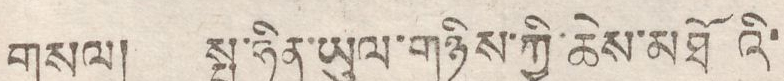གསལ། སྤ་ཧིན་ཡུལ་གཉིས་ཀྱི་ཆེས་མཐོའི་
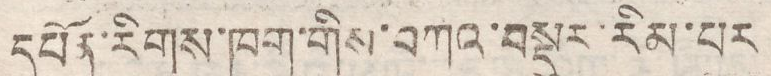དཔོན་རིགས་ཁག་གིས་བཀའ་བསྡུར་རིམ་པར
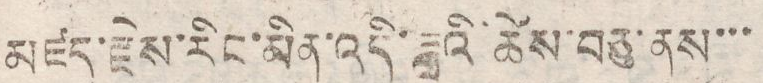མཛད་རྗེས་རིང་མིན་འདི་ཟླའི་ཚེས་བཅུ་ནས་་་
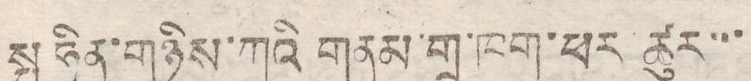སྤ ཧིན་གཉིས་ཀའི གནམ་གྲུ་ཁག་ཕར ཚུར་་་
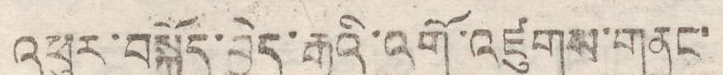འཕུར་བསྐྱོད་བྱེད་རྒྱུའི་འགོ་འཛུགས་གནང་
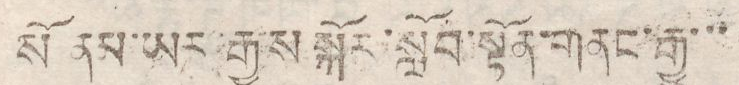སོ ནམ་ཡར་རྒྱས་སྐོར་སྒྲོབ་སྟོན་གནང་རྒྱུ་་་
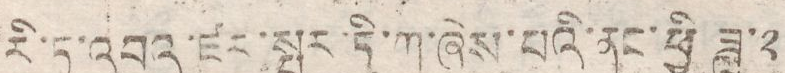རི་ཏ་འབའ་ཛམ་སྤར་ཏི་ཀ་ཞེས་པའི་ནང་ཕྱི ཟླ་༢
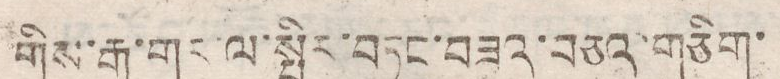གིས་རྒྱ་གར་ལ་སྤྱིར་བཏང་བཟའ་བཅའ་གཅིག་
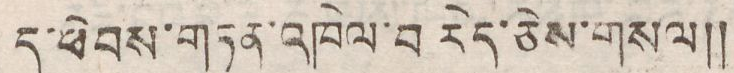དུ་ཕེབས་གཏན་འཁེལ་བ རེད་གསལ།།
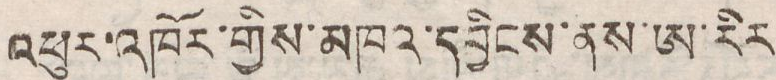འཕུར་འཁོར་གྱིས་མཁའ་དབྱིངས་ནས་ཨ་རིར་
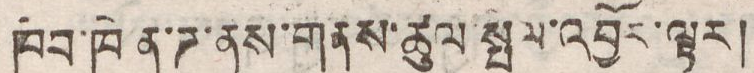ཁེབ་ཁེ ན་ཌ་ནས་གནས་ཚུལ་སྤལ་འབྱོར་ལྟར།
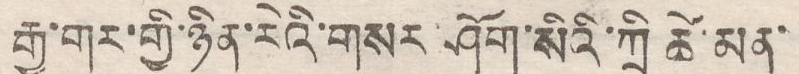རྒྱ་གར་གྱི་ཉིན་རེའི་གསར་ཤོག་སིའི་ཀྲི ཚེ་མན་
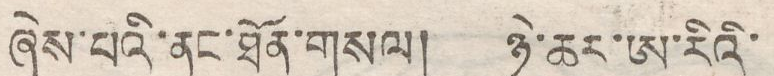ཞེས་པའི་ནང་ཐོན་གསལ། ཉེ་ཆར་ཨ་རིའི་
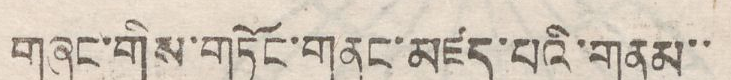གཞུང་གིས་གཏོང་གནང་མཛད་པའི་གནམ་་
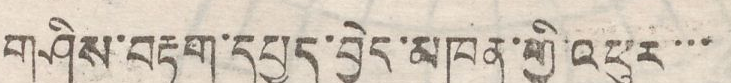གཤིས་བརྟག་དཔྱད་བྱེད་མཁན་གྱི་འཕུར་་་
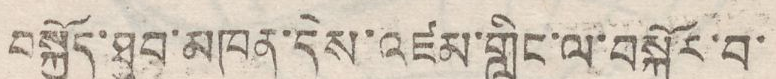བསྐྱོད་ཐུབ་མཁན་དེས་འཛམ་གླིང་ལ་བསྐོར་བ་
